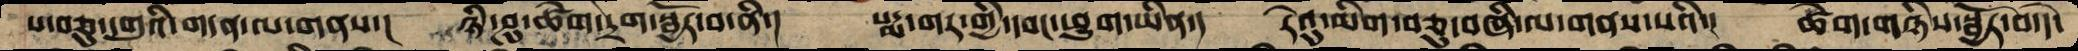པ་བཅུ་དགུའི་གདན་ལ་གནས་།  ཉི་ཤུ་ཚེག་དྲག་སྦྱོར་བ་ནི་།  པདྨ་གར་གྱི་དབང་ཕྱུག་ཡིན་།  རེའུ་མིག་བཅུ་བཞི་ལ་གནས་པའི་།  ཚིག་གཉིས་སྦྱོར་བ་དེ་
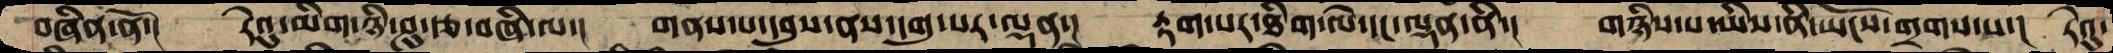བཞིན་ནོ་།  རེའུ་མིག་ཉི་ཤུ་རྩ་བཞི་ལ་།  གནས་པ་དབུས་ནས་དགུ་པར་ལྡན་།  རྟག་པར་ཐིག་ལེ་དང་ལྡན་ནི་།  གཉིས་པ་ཡིས་ནི་ཡོངས་གྲགས་པ་།  རེའུ་
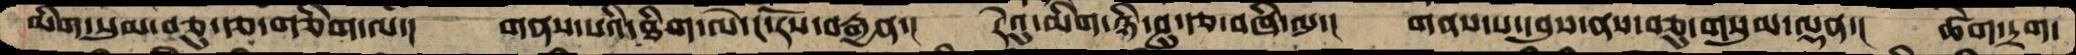མིག་སུམ་བཅུ་རྩ་གཅིག་ལ་།  གནས་པའི་ཐིག་ལེ་ང་རོས་བརྒྱན་།  རེའུ་མིག་ཉི་ཤུ་རྩ་བཞི་ལ་།  གནས་པ་དབུས་ནས་བཅུ་གསུམ་ལྡན་།  ཚེག་དྲག་
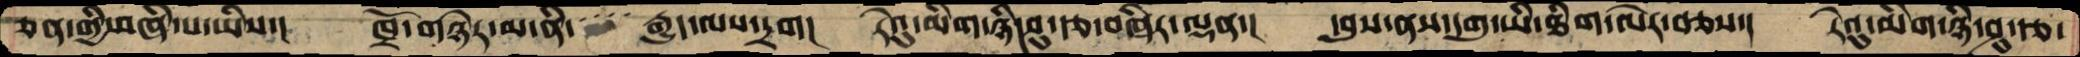ཅན་གྱི་བཞི་པ་ཡིས་།  ཁྲོ་གཉེར་མ་ནི་་་་་ རྒྱུད་ལས་དྲག།  རེའུ་མིག་ཉིདཤུ་རྩ་བཞིར་ལྡན་།  དབུས་ནས་དགུ་ཡི་ཐིག་ལེར་བཅས་།  རེའུ་མིག་ཉི་ཤུ་རྩ་
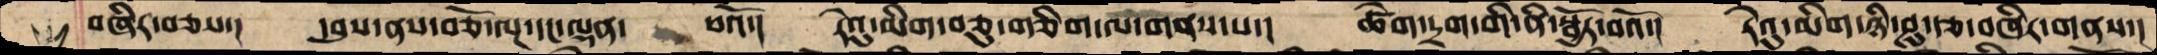བཞིར་བཅས་།   དབུས་ནས་བཅོ་ལྔ་དང་ལྡན་  པའོ་།   རེའུ་མིག་བཅུ་གཅིག་ལ་གནས་པ་།  ཚེག་དྲག་གི་ནི་སྦྱོར་བའོ་།  རེའུ་མིག་ཉི་ཤུ་རྩ་བཞིར་གནས་།
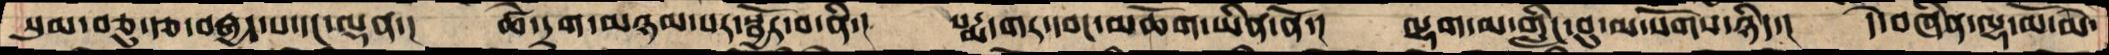སུམ་བཅུ་རྩ་བརྒྱད་པ་དང་ལྡན་།  ཚེག་དྲག་མཉམ་པར་སྦྱོར་བ་ནི་།  པདྨ་གར་དབང་མཆོག་ཡིན་ནོ་།  ལྷག་མ་གླིང་བུ་ལ་སོགས་ཉིད་།  དེ་བཞིན་ལྷ་མོ་མེ་
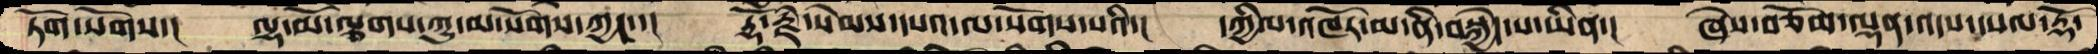ཏོག་སོགས་།  ལྷ་མོ་ལྕགས་ཀྱུ་མ་སོགས་ཀྱང་་།  རྡོ་རྗེ་སེམས་དཔའ་ལ་སོགས་པའི་།  དཀྱིལ་འཁོར་མ་ནི་བསྐྱེད་པ་ཡིན་།  ཞེས་བཅོམ་ལྡན་འདས་དཔལ་རྡོ་
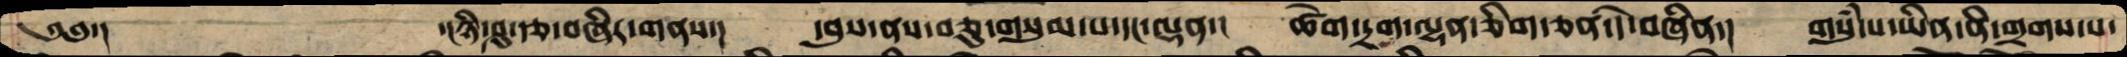༄༅་།      ་།ཉི་ཤུ་རྩ་བཞིར་གནས་།  དབུས་ནས་བཅུ་གསུམ་པ་དང་ལྡན་།  ཚེག་དྲག་ལྷན་ཅིག་ཅན་དེ་བཞིན་།  གསུཾ་པ་ཡིན་ནི་གྲགས་པ་
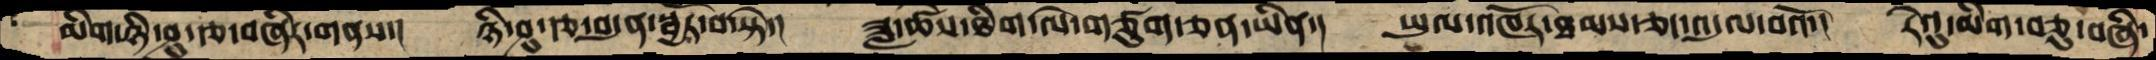མིག་ཉི་ཤུ་རྩ་བཞིར་གནས་།  ཉི་ཤུ་རྩ་བདུན་སྦྱོར་བ་སྟེ་།  ཟླ་ཚེས་ཐིག་ལེ་གཙུག་ཅན་ཡིན་།  ཡུལ་འཁོར་ཐམས་ཅད་འདུལ་བའོ་།  རེའུ་མིག་བཅུ་བཞི་
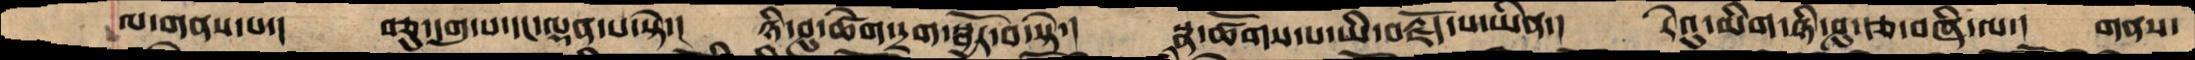ལ་གནས་པ་།  བཅུ་དགུ་པ་དང་ལྡན་པ་སྟེ་།  ཉི་ཤུ་ཚེག་དྲག་སྦྱོར་བ་སྟེ་།  སྣ་ཚོགས་པ་ཡི་བརྗོད་པ་ཡིན་།  རེའུ་མིག་ཉི་ཤུ་རྩ་བཞི་ལ་།  གནས་
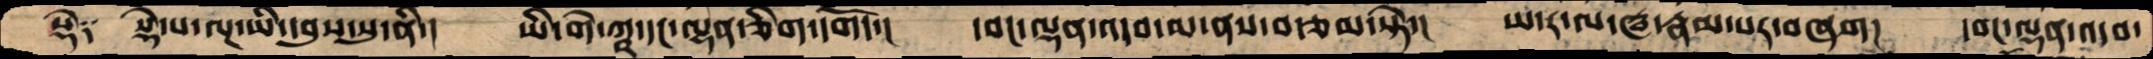སྡེ༑  སྡེ་པ་ལྔ་ཡི་དབུས་སུ་ནི་།  ཡི་གེ་ཀྵ་དང་ལྷན་ཅིག་དགོད་།  དབང་ལྡན་འདབ་མ་ནས་བརྩམ་སྟེ་།  ཡ་ར་ལ་ཝ་རྣམ་པར་བཞག།  དབང་ལྡན་འདབ་
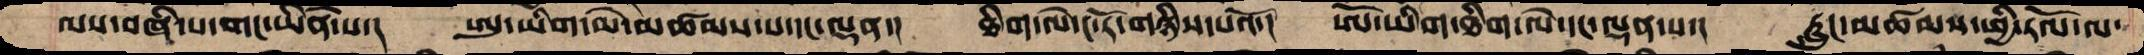ལས་བཞི་པ་གང་ཡིན་པ་།  ཨུ་ཡིག་མེ་མཚམས་པ་དང་ལྡན་།  ཐིག་ལེ་ང་རོ་གཉིས་པའོ་།  ཨོ་ཡིག་ཐིག་ལེ་དང་ལྡན་པ་།  རླུང་མཚམས་ཕྱི་རོལ་ལ་
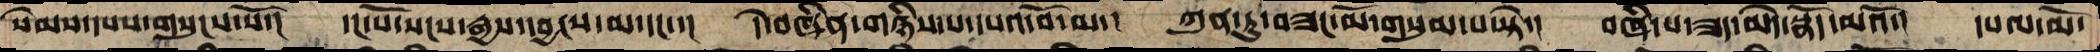སེམས་དཔས་གསུངས་སོ་།  དང་པོ་སངས་རྒྱས་དབྱངས་མ་དང་་།  དེ་བཞིན་གཉིས་པ་དཔའ་བོ་མ་།  ཀུན་ཏུ་བཟང་མོ་གསུམ་པ་སྟེ་།  བཞི་པ་ཟད་མེད་སྣོད་མའོ་།  དཔལ་མོ་
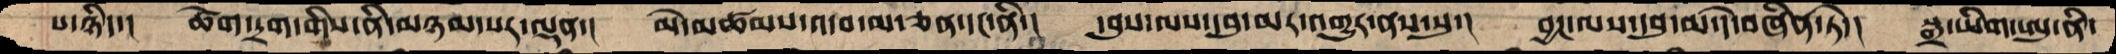པ་ཉིད་།  ཚེག་དྲག་གིས་ནི་མཉམ་པར་ལྡན་།  མེ་མཚམས་འདབ་མ་ཅན་དང་ནི་།  དབུས་ལས་དབུ་མར་འགྱུར་ནས་སུ་།  བྱང་ལས་དབུ་མ་དེ་བཞིན་ཏེ་།  སྒྲ་ཡིག་ཨུ་ནི་
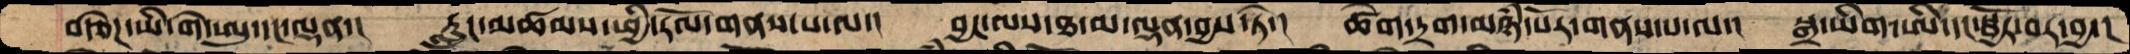བརྩེཌ་ཡི་གེ་ཨུ་དང་ལྡན་།  རླུང་མཚམས་ཕྱི་རོལ་གནས་པ་ལ་།  བྱང་ལས་ཐ་མ་ལྡན་བྱས་ཏེ་།  ཚེག་དྲག་མཉཾ་པོར་གནས་པ་ལ་།  སྒྲ་ཡིག་ཨི་དང་སྦྱོར་བར་བྱ་།
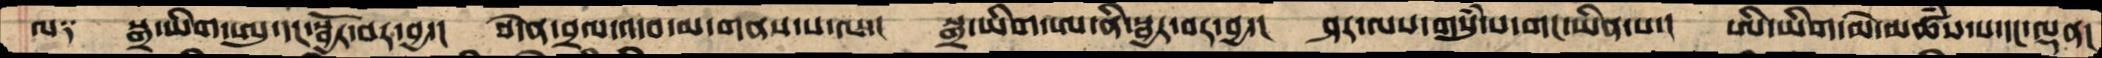ལ༑   སྒྲ་ཡིག་ཨུ་དང་སྦྱོར་བར་བྱ་།  བདེན་བྲལ་འདབ་མ་གནས་པ་ལ་།  སྒྲ་ཡིག་ཨ་ནི་སྦྱར་བར་བྱ་།  ཤར་ལས་གསུཾ་པ་གང་ཡིན་པ་།  ཨི་ཡིག་མེ་མཚཾས་པ་དང་ལྡན།
